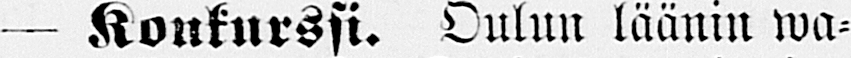— Koukurssi. Oulun läänin wa-
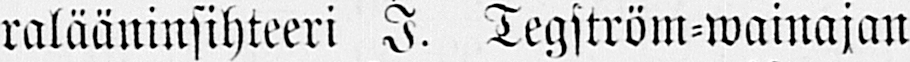ralääninsihteeri I. Tegsström-wainajan
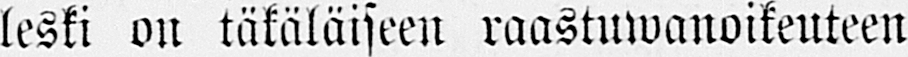leski on täkäläiseen raastuwanoikeuteen
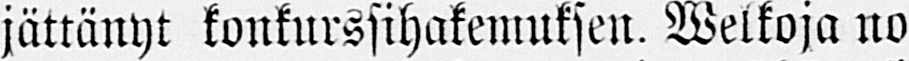jättänyt konkurssihakemuksen. Welkoja no
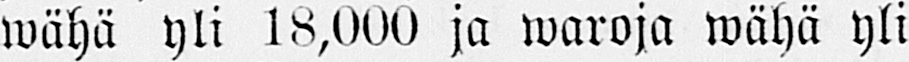wähä yli 18,000 ja waroja wähä yli
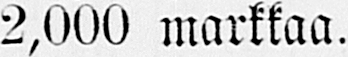2,000 markkaa.
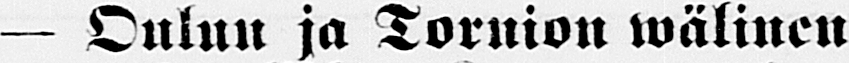— Oulun ja Tornion wälinen
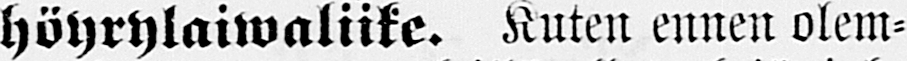höyrylaiwaliike. Kuten ennen olem-
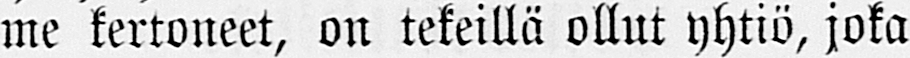me kertoneet, on tekeillä ollut yhtiö, joka
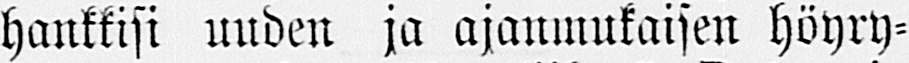hankkisi uuden ja ajanmukaisen höyry-
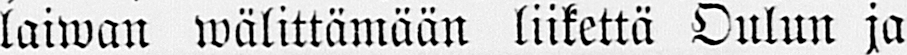laiwan wälittämään liikettä Oulun ja
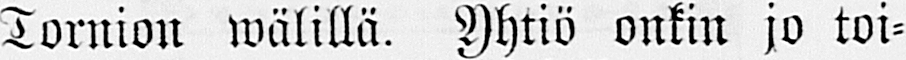Tornion wälillä. Yhtiö onkin jo toi-
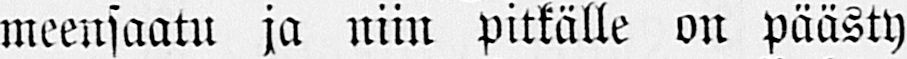meensaatu ja niin pitkälle on päästy
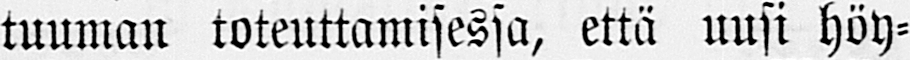tuuman toteuttamisessa, että uusi höy-
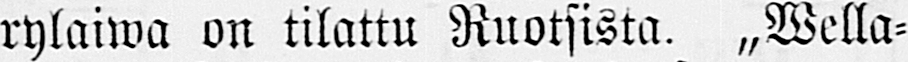rylaiwa on tilattu Ruotsista. „Wella-
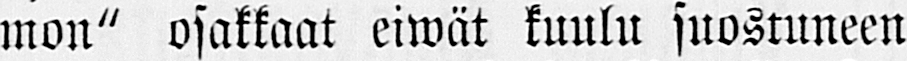mon" osakkaat eiwät kuulu suostuneen
